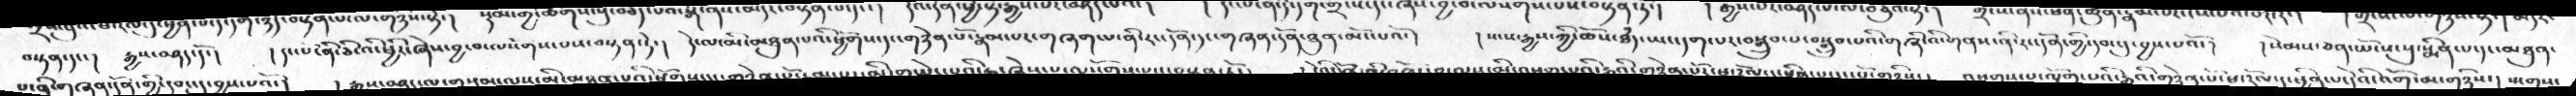བསྟན་དང་།   རྒྱས་བཤད་དོ་།   །དང་པོ་ནི་ཅི་འི་ཕྱིར་ཞེས་བྱ་བ་ལསོགས་པས་བསྟན་ཏེ་།   དེ་ལ་མི་མཐུན་པའི་ཕྱོགས་དང་གཉེན་པོ་རྣམ་པར་གཞག་པ་ནི་རང་དོན་དང་གཞན་དོན་ཐུན་མོང་པའོ་།   །སངས་རྒྱས་ཀྱི་ཆོས་ཐཾད་ཡང་དག་པར་བསྒྲུབ་པ་བསྒྲུབ་པའི་གཞི་འི་གནས་ནི་རང་དོན་གྱི་དབང་དུ་བྱས་པའོ་།   །སེམས་ཅན་ཡོངས་སུ་སྨིན་པ་དང་མཐུན་
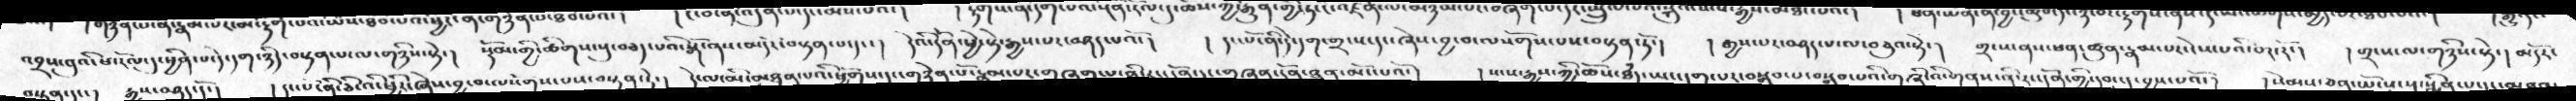འབྲས་བུའི་ཕ་རོལ་དུ་ཕྱིན་པ་དེ་དག་ཉིད་བསྟན་པ་ལ་གཉིས་སྟེ་།   སྟོབས་གྱི་ཚིགས་སུ་བཅད་པའི་སྒོ་ནས་མདོར་བསྟན་པ་དང་།   དེའི་དོན་ཕྱེ་སྟེ་རྒྱས་པར་བཤད་པའོ་།   །དང་པོ་ནི་དེ་དག་གྲངས་དང་ཞེས་བྱ་བ་ལསོགས་པས་བསྟན་ཏོ་།   །རྒྱས་པར་བཤད་པ་ལ་བཅུའ་སྟེ་།  གྲངས་ནས་ཕན་ཚུན་རྣམ་པར་ངེས་པའི་བར་རོ་།   །གྲངས་ལ་གཉིས་སྟེ་། མདོར་
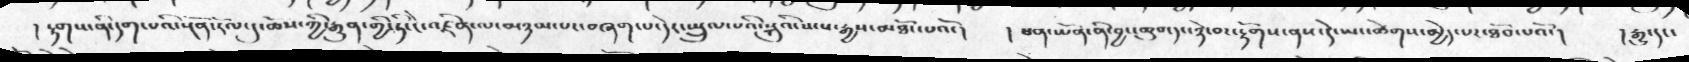། རྟགས་ནི་དག་པའི་སྔོན་རོལ་དུ་ཆོས་ཀྱི་རྒྱུན་གྱི་ཏི་ངེ་འཛིན་ལ་མཉམ་པར་བཞག་པ་དེར་སྤྲུལ་པའི་སྐུའི་སངས་རྒྱས་མཐོང་པའོ་།  ། ཕན་ཡོན་ནི་བྱང་ཆུབ་དང་ཉེ་བར་རྟོགས་ནས་དེ་ཡང་ཚེགས་མྱེད་པར་ཐོབ་པའོ་།  ། རྒྱུ་དང་
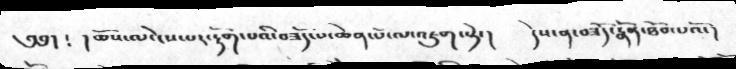༄༅།  ༴ ། ཆོས་ལ་ངེས་པར་རྟོག་པའི་བཟོད་པ་ཆེན་པོ་ལ་འཇུག་སྟེ་།  དེས་ན་བཟོད་རྣོན་ཐོབ་པའོ་།
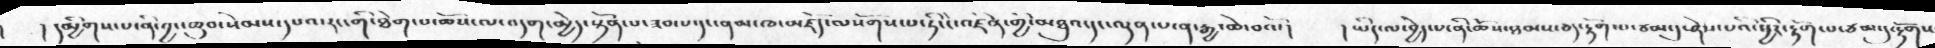།དམྱིགས་པ་ནི་བྱང་ཆུབ་སེམས་དཔའ་རང་གི་ཐིག་པ་ཆོས་ལ་བདག་མྱེད་སྟོན་པ་ཟབ་པ་དང་ནམ་ཁ་མཛོད་ལསོགས་པ་ཏིངངེ་འཛིན་གྱི་མཐུའ་དང་ལྡན་པ་ན་རྒྱ་ཆེ་བའོ་།  །ཡིད་ལ་བྱེད་པ་ནི་ཆོས་ཐམས་ཅད་རྟོགས་ཙམ་དུ་ཤེས་པའི་ཕྱིར་རྟོག་པ་ཙམ་དུ་རྟོགས་
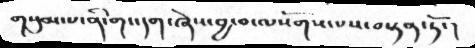གསུམ་པ་ནི་གང་དག་ཞེས་བྱ་བ་ལསོགས་པས་བསྟན་ཏོ་།
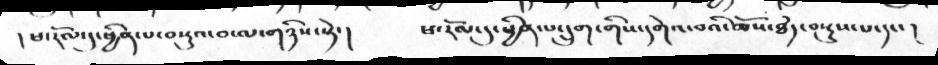། ཕ་རོལ་དུ་ཕྱིན་པ་བསྡུའ་བ་ལ་གཉིས་སྟེ་།   ཕ་རོལ་དུ་ཕྱིན་པ་དྲུག་གིས་དགེའ་བའི་ཆོས་ཐཾད་བསྡུས་པ་དང་།
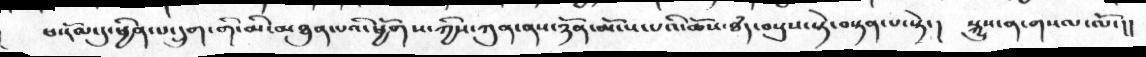ཕ་རོལ་དུ་ཕྱིན་པ་དྲུག་གི་མི་མཐུན་པའི་ཕྱོགས་ཀྱིས་ཀུན་ནས་ཉོན་མོངས་པའི་ཆོས་ཐཾད་བསྡུས་སྟེ་བསྟན་པ་སྟེ་།  སྐུས་ན་གསལ་ལོ་།།
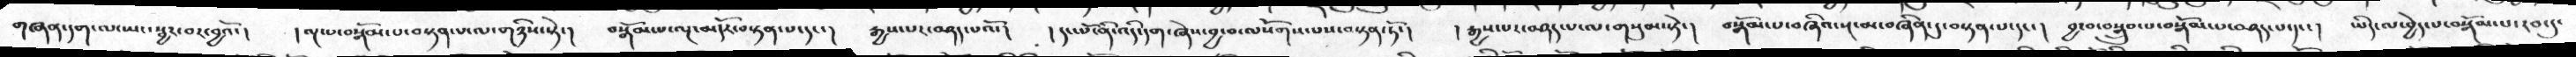གཞན་དག་ལ་ཡང་སྦྱར་བར་བྱའོ་།  །ལྔ་པ་བསྒོམ་པ་བསྟན་པ་ལ་གཉིས་སྟེ་།  བསྒོམ་པ་ལྔ་མདོར་བསྟན་པ་དང་།  རྒྱས་པར་བཤད་པའོ་།  ། དང་པོ་ནི་འདི་དག་ཞེས་བྱ་བ་ལསོགས་པས་བསྟན་ཏོ་།  ། རྒྱས་པར་བཤད་པ་ལ་གསུམ་སྟེ་།  བསྒོམ་པ་བཞིའ་སྔ་མ་བཞིན་དུ་བསྟན་པ་དང་།  བྱ་བ་བསྒྲུབ་པ་བསྒོམ་པ་བཤད་པ་དང་།  ཡིད་ལ་བྱེད་པ་བསྒོམ་པ་རབ་དུ་
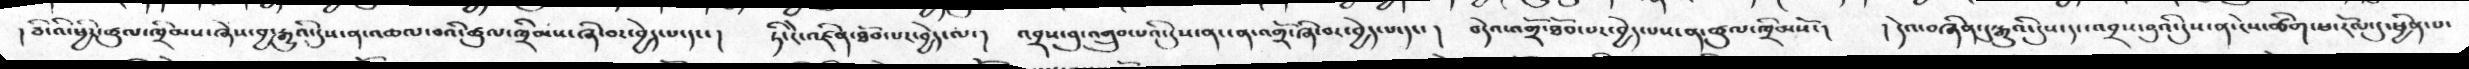།ཅི་འི་ཕྱིར་ཚུལ་ཁྲིམས་ཞེས་བྱ་རྒྱུའི་དུས་ན་འཆལ་བའི་ཚུལ་ཁྲིམས་ཞི་བར་བྱེད་པ་དང་།  ཏི་ངེ་འཛིན་ཐོབ་བར་བྱེད་ལ་།  འབྲས་བུ་འགྲུབ་པའི་དུས་ན་ངན་འགྲོ་ཞི་བར་བྱེད་པ་དང་།  བདེའ་འགྲོ་ཐོབ་པར་བྱེད་པས་ན་ཚུལ་ཁྲིམསོ་།  །དེའ་བཞིན་དུ་རྒྱུའི་དུས་དང་འབྲས་བུའི་དུས་ན་ངེས་ཚིག་ཕ་རོལ་དུ་ཕྱིན་པ་
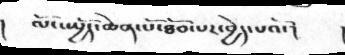། ལོང་སྤྱོད་ཆེན་པོ་ཐོབ་པར་བྱེད་པའོ་།   །
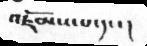འཇོམས་པ་དང་།
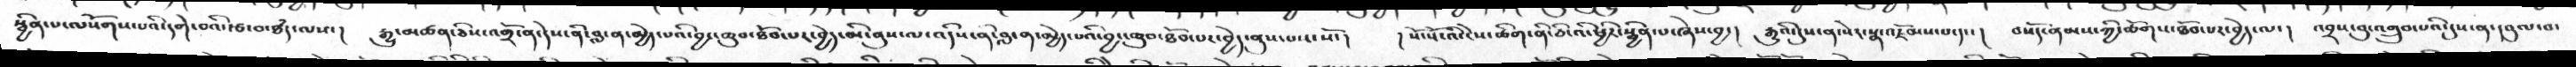སྦྱིན་པ་ལསོགས་པའི་དགེ་བའི་རྩ་བ་ཐཾད་ལས་།  རྒྱུ་མཚན་ཅིས་འགྲོ་ན་དེས་ནི་བླ་ན་མྱེད་པའི་བྱང་ཆུབ་ཐོབ་པར་བྱེད་མི་ནུས་ལ་འདིས་ན་བླ་ན་མྱེད་པའི་བྱང་ཆུབ་ཐོབ་པར་བྱེད་ནུས་པས་སོ་།  ། སོ་སོ་འི་ངེས་ཚིག་ནི་ཅི་འི་ཕྱིར་སྦྱིན་པ་ཞེས་བྱ་།  རྒྱུའི་དུས་ན་སེར་སྣ་འཇོམས་པ་དང་།   བསོད་ནམས་ཀྱི་ཚོགས་ཐོབ་པར་བྱེད་ལ་།  འབྲས་བུ་འགྲུབ་པའི་དུས་ན་དབུལ་བ་
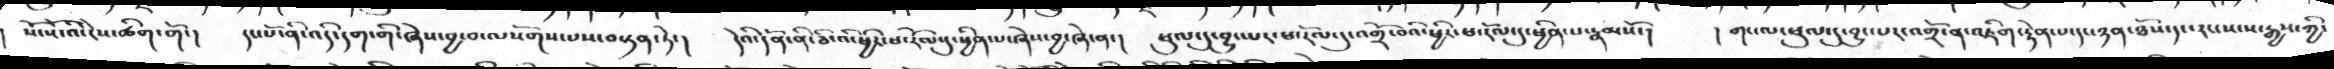སོ་སོ་འི་ངེས་ཚིག་གོ་།   དང་པོ་ནི་འདི་དག་གི་ཞེས་བྱ་བ་ལསོགས་པས་བསྟན་ཏེ་།  དེའི་དོན་ནི་ཅི་འི་ཕྱིར་ཕ་རོལ་དུ་ཕྱིན་པ་ཞེས་བྱ་ཞེ་ན་།  ཕུལ་དུ་བྱུང་པར་ཕ་རོལ་དུ་འགྲོ་བའི་ཕྱིར་ཕ་རོལ་དུ་ཕྱིན་པ་རྣམསོ།   །གང་ལ་ཕུལ་དུ་བྱུང་པར་འགྲོ་ན་འཇིག་རྟེན་པ་དང་ཉན་ཐོས་དང་རང་སངས་རྒྱས་ཀྱི་
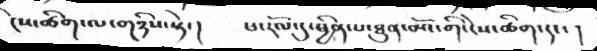ངེས་ཚིག་ལ་གཉིས་སྟེ་།   ཕ་རོལ་དུ་ཕྱིན་པ་ཐུན་མོང་གི་ངེས་ཚིག་དང་།
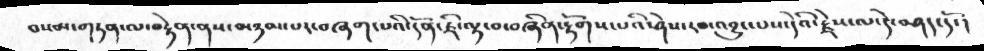བསམ་གཏན་ལ་བརྟེན་ནས་མཉམ་པར་བཞག་པའི་དོན་ཇི་ལྟ་བ་བཞིན་རྟོགས་པའི་ཤེས་རབ་འབྱུང་པས་དེའི་རྗེས་ལ་དེ་བཤད་དོ་།
